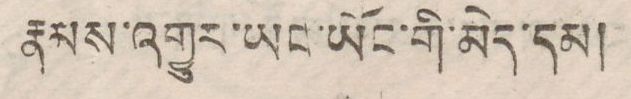རྣམས་འགྱུར་ཡང་ཡོང་གི་མེད་དམ།
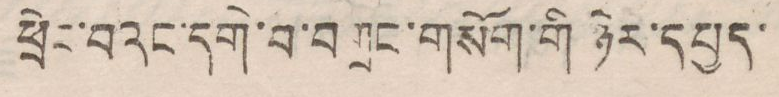ཕྲེང་བའང་དགེ་བ་བགྲང་གསོག་གི ཉེར་དཔྱད་
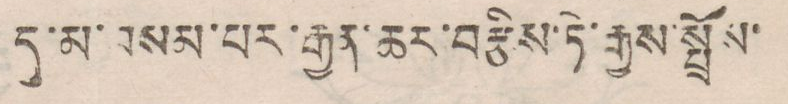དུ་མ་བསམ་པར་རྒྱན་ཆར་བརྩིས་ཏེ་རྒྱས་སྤྲོས་
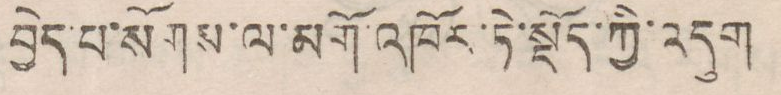བྱེད་པ་སོགས་ལ་མགོ་འཁོར་ཏེ་སྡོད་ཀྱི་འདུག
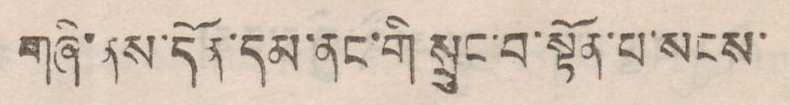གཞི་ནས་དོན་དམ་ནང་གི སྲུང་བ་སྟོན་པ་སངས་
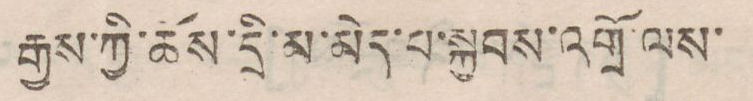རྒྱས་ཀྱི་ཆོས་དྲི་མ་མེད་པ་སྐྱབས་འགྲོ་ལས་
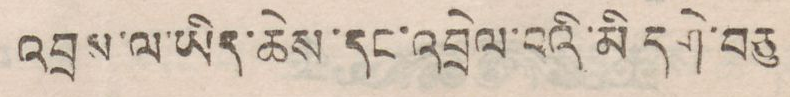འབྲས་པ་ཡིད་ཆེས་དང་འབྲེལ་པའི་མི དགེ་བཅུ
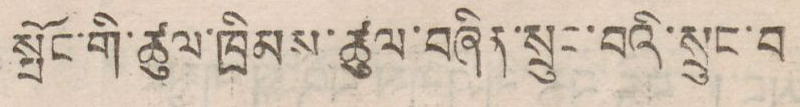སྤོང་གི་ཚུལ་ཁྲིམས་ཚུན་བཞིན་སྲུང་བའི་སྲུང་བ
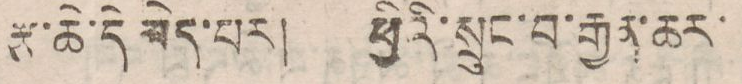རྩ་ཆེ་དེ མེད་པར། ཕྱིའི་སྲུང་བ་རྒྱན་ཆར་
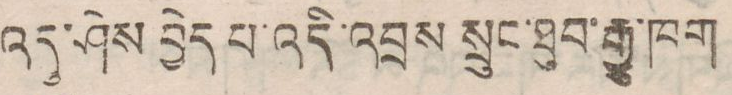འདུ་ཤེས བྱེད་པ་འདི་འབྲས སྲུང་ཐུབ་རྒྱུ་ཁག
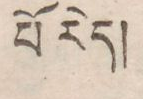པོ་རེད།
